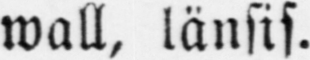wall, länsis.
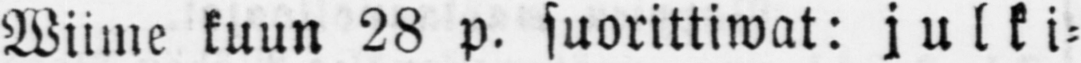Wiime kuun 28 p. suorittiwat: julki-
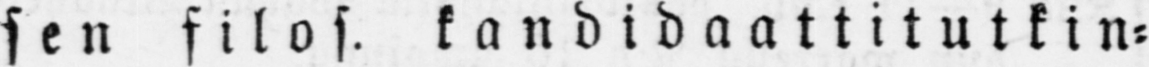sen filos. kandidaattitutkin-
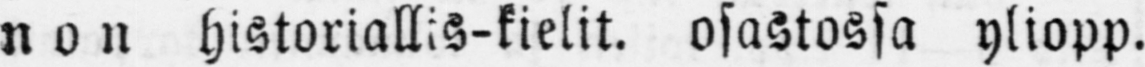non historiallis-kielit. osastossa yliopp.
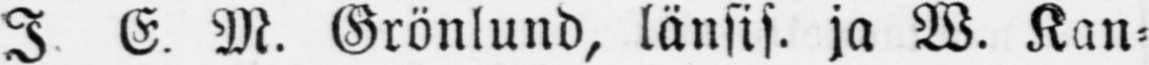I. E. M. Grönlund, länsis. ja W. Kan-
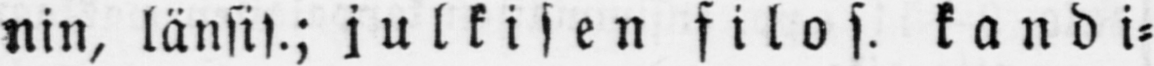nin, länsis.; julkisen filos. kandi-
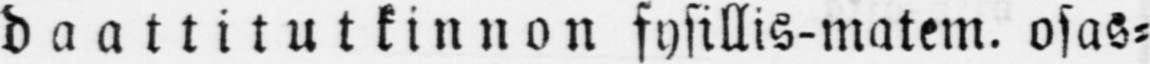daattitutkinnon fysillis-matem. osas-
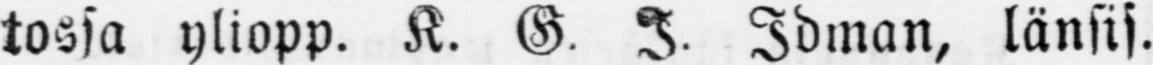tossa yliopp. K. G. I. Idman, länsis.
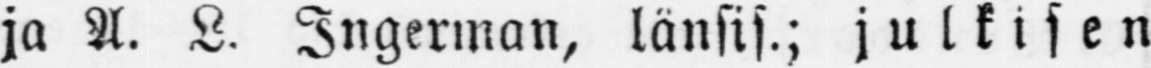ja A. L. Ingerman, länsis.; julkisen
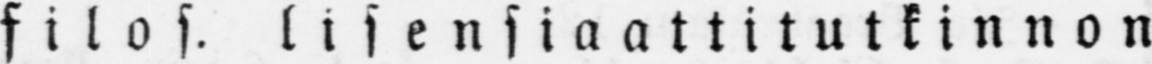filos. lisensiaattitutkinnon
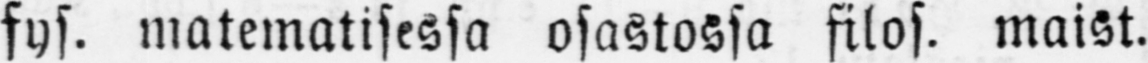fys. matematisessa osastossa filos. matst.
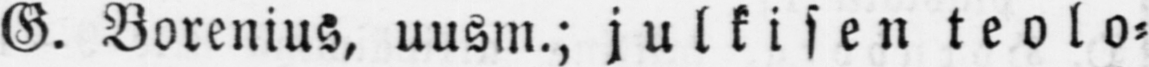G. Borenius, uusm.; julkisen teolo-
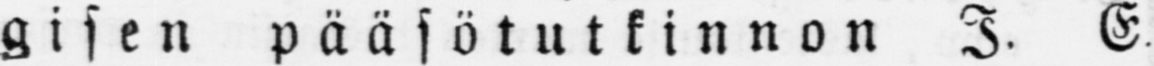gisen pääsötutkinnon J. E.
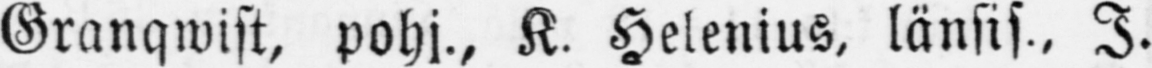Granqwist, pohj., K. Helenius, länsis., J.
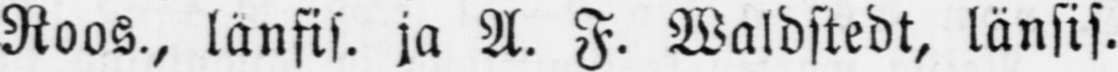Roos., länsis. ja A. F. Waldstedt, länsis.
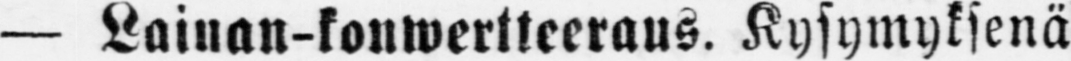— Lainan-konwertteeraus. Kysymyksenä
